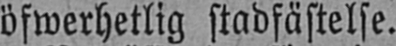öfwerhetlig stadfästelse.
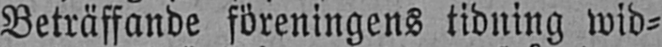Beträffande föreningens tidning wid-
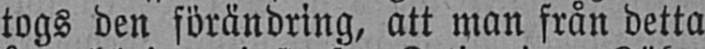togs den förändring, att man från detta
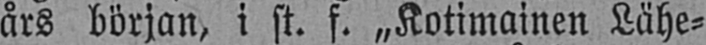års början, i st. f. „Kotimainen Lähe-
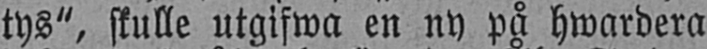tys", skulle utgifwa en ny på hwardera
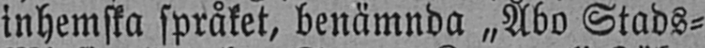inhemska språket, benämnda „Åbo Stads-
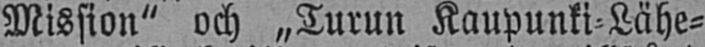Mission" och „Turun Kaupunki-Lähe-
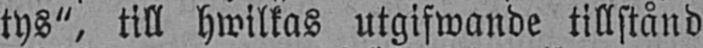tys", till hwilkas utgifwande tillstånd
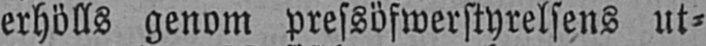erhölls genom pressöfwerstyrelsens ut-
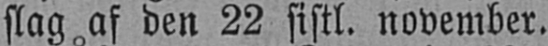slag af den 22 sistl. november.
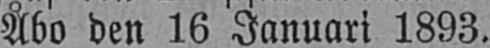Åbo den 16 Januari 1893.
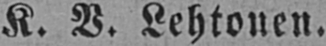K. V. Lehtonen.
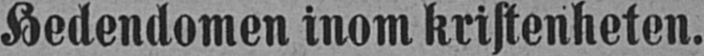Hedendomen inom kristenheten.
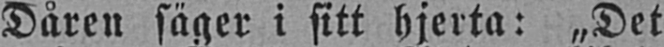Dåren säger i sitt hjerta: „Det
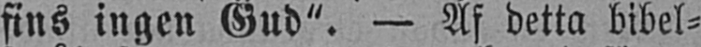fins ingen Gud". — Af detta bibel-
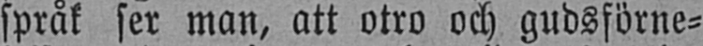språk ser man, att otro och gudsförne-
